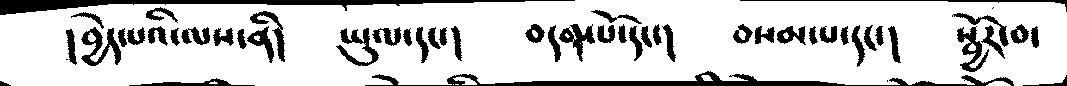།བྱེད་པའི་ལས་ནི།   ཡུལ་དང་།   བདག་པོ་དང་།   བསམ་པ་དང་།  སྦྱོར་བ་
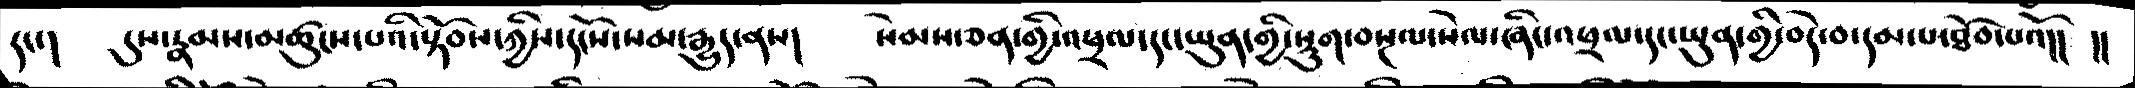དང་།   དུས་རྣམས་མཚུངས་པའི་སྟོབས་ཀྱིས་དངོས་སམ་རྒྱུད་ནས།   སེམས་ཅན་གྱི་འཕྲལ་དང་ཡུན་གྱི་སྡུག་བསྔལ་སེལ་ཞིང་འཕྲལ་དང་ཡུན་གྱི་བདེ་བ་དམ་པ་ཐོབ་པའོ།།  །།
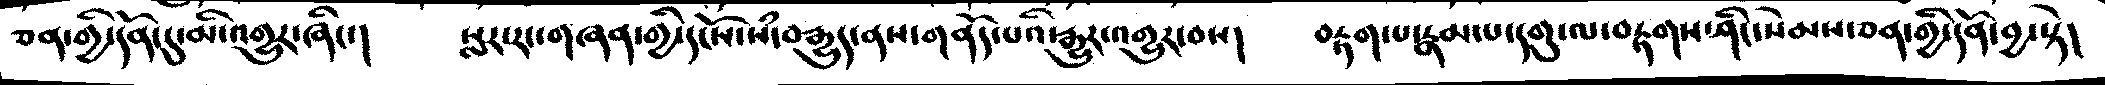ཅན་གྱི་དོན་དུ་མི་འགྱུར་ཞིང་།   སླར་རང་གཞན་གྱི་དངོས་སཾ་བརྒྱུད་ནས་གནོད་པའི་རྒྱུར་འགྱུར་བས།   བརྟག་པ་རྣམ་པ་དགུ་ལ་བརྟགས་ཤིང་སེམས་ཅན་གྱི་དོན་བྱ་སྟེ།
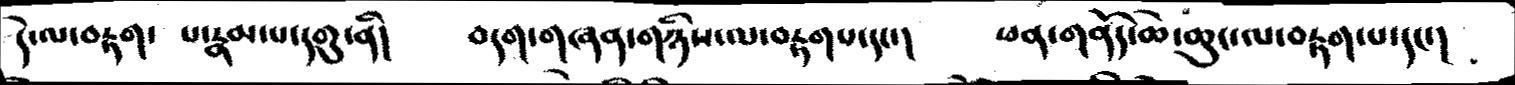དེ་ལ་བརྟག་ པ་རྣམ་པ་དགུ་ནི།   བདག་གཞན་གཉིས་ལ་བརྟགས་དང་།    ཕན་གནོད་ཆེ་ཆུང་ལ་བརྟག་པ་དང་།
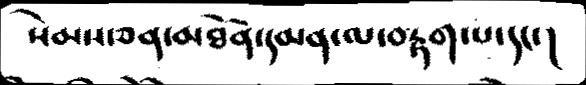སེམས་ཅན་མཐོན་དམན་ལ་བརྟག་པ་དང་།
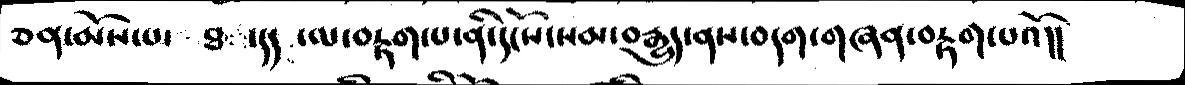ཅན་མོས་པ་  ཐ ་དད ་ལ་བརྟག་པ་ནི་དངོས་སམ་བརྒྱུད་ནས་བདག་གཞན་བརྟག་པའོ།།
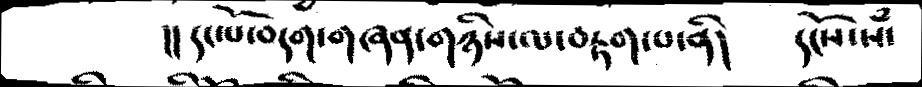།།དང་པོ་བདག་གཞན་གཉིས་ལ་བརྟག་པ་ནི།  དངོས་སྃ་
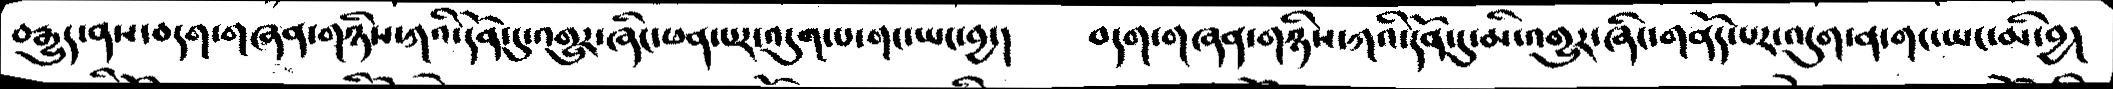བརྒྱུད་ནས་བདག་གཞན་གཉིས་ཀའི་དོན་དུ་འགྱུར་ཞིང་ཕན་པར་འདུག་པ་གང་ཡང་བྱ་།  བདག་གཞན་གཉིས་ཀའི་དོན་དུ་མི་འགྱུར་ཞིང་གནོད་པར་འདུག་ན་གང་ཡང་མི་བྱ།
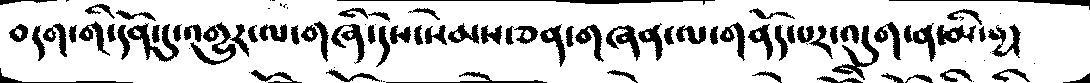བདག་གི་དོན་དུ་འགྱུར་ལ་གཞི་དེས་སེམས་ཅན་གཞན་ལ་གནོད་པར་འདུག་ན་མི་བྱ།
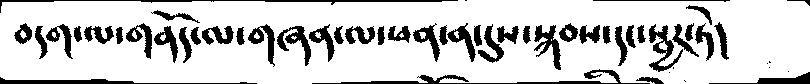བདག་ལ་གནོད་ལ་གཞན་ལ་ཕན་ན་དུས་སྐབས་དང་སྦྱར་ཏེ།
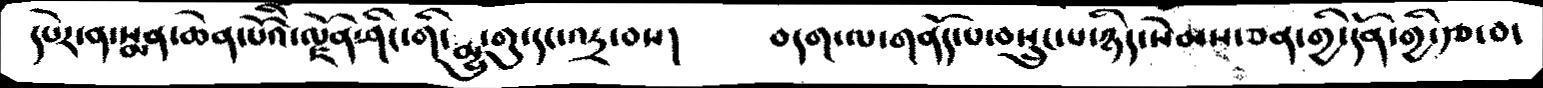དཔེར་ན་སྨན་ཆེན་པོའི་ལྗོན་ཤིང་གི་མྱུ་གུ་དང་འདྲ་བས།    བདག་ལ་གནོད་པ་བསྲུང་པ་ཉིད་སེམས་ཅན་གྱི་དོན་གྱི་རྩ་བ་
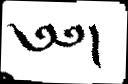༄༅།
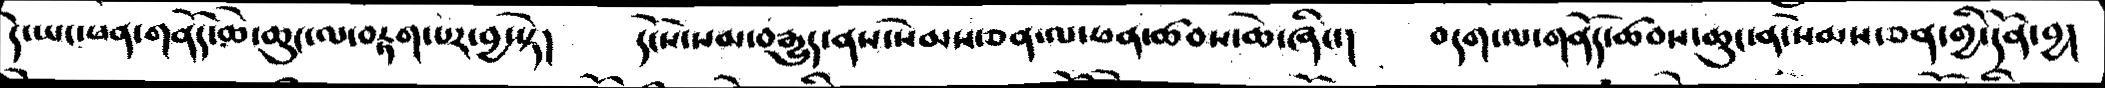དེ་ཡང་ཕན་གནོད་ཆེ་ཆུང་ལ་བརྟག་པར་བྱ་སྟེ།   དངོས་སམ་བརྒྱུད་ནས་སེམས་ཅན་ལ་ཕན་ཚབས་ཆེ་ཞིང་།   བདག་ལ་གནོད་ཚབས་ཆུང་ན་སེམས་ཅན་གྱི་དོན་བྱ།
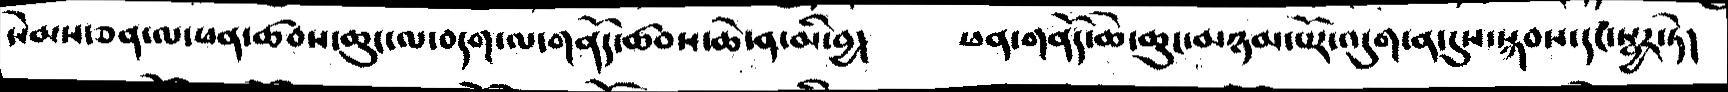སེམས་ཅན་ལ་ཕན་ཚབས་ཆུང་ལ་བདག་ལ་གནོད་ཚབས་ཆེ་ན་མི་བྱ།   ཕན་གནོད་ཆེ་ཆུང་མཉམ་པོར་འདུག་ན་དུས་སྐབས་དང་སྦྱར་ཏེ།
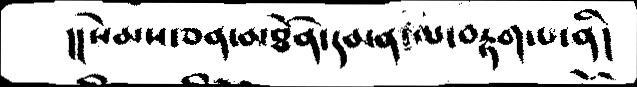།།སེམས་ཅན་མཐོན་དམན་ལ་བརྟག་པ་ནི།
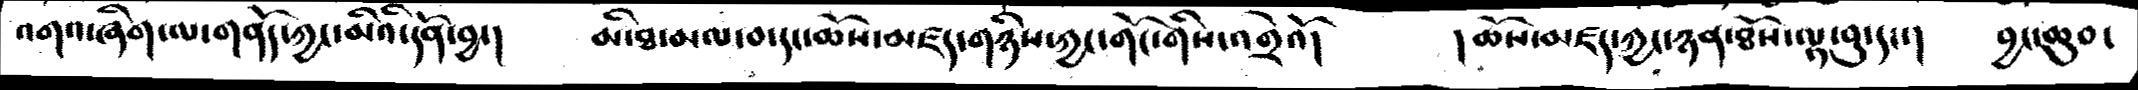འགའ་ཞིག་ལ་གནོད་ཀྱང་མིའི་དོན་བྱ་།   མི་ཐ་མལ་བ་དང་ཆོས་མཛད་གཉིས་ཀྱང་གོང་གིས་འགྲེའོ།    །ཆོས་མཛད་ཀྱང་ཉན་ཐོས་ལྟ་བུ་དང་།   བྱང་ཆུབ་
